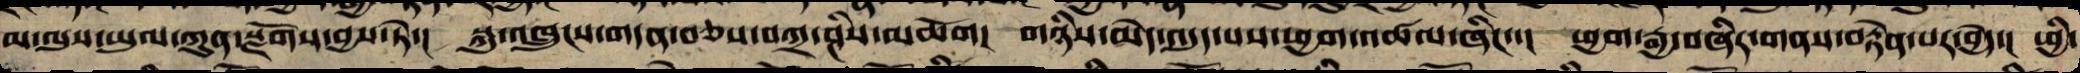མ་ལུས་ཡུལ་ཀུན་སྫོགས་བྱས་ཏེ་། སྐུ་འཁྲུངས་གདན་བཅས་བཀྲ་ཤིས་མཆོག། གཉིས་མེད་འདུད་པས་ཕྱག་འཚལ་ཞིང་་། ཕྱག་རྒྱ་བཞིར་གནས་བརྟན་པར་བྱེད་། ཕྱི་
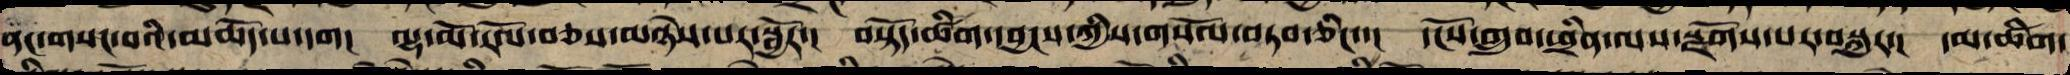ནང་གསང་བའི་མཆོད་པ་དག། ལྷ་མོ་རོལ་བཅས་མཉེས་པར་སྦྱོར་། བསྟོད་ཚིག་དབྱངས་ཀྱིས་གསོལ་གདབ་ཅིང་་། དངོས་གྲུབ་ཕྲིན་ལས་སྫོགས་པར་བསྐུར་། དམ་ཚིག་
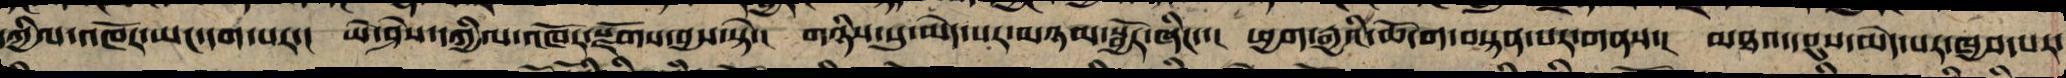དཀྱིལ་འཁོར་ཡང་དག་པར་། ཡེ་ཤེས་དཀྱིལ་འཁོར་སྫོགས་བྱས་ཏེ་། གཉིས་སུ་མེད་པར་མཉམ་སྦྱོར་ཞིང་་། ཕྱག་རྒྱའི་ཆོ་ག་བསྟན་པར་གནས་། མཐའ་དབུས་མེད་པར་ཁྱབ་པར་
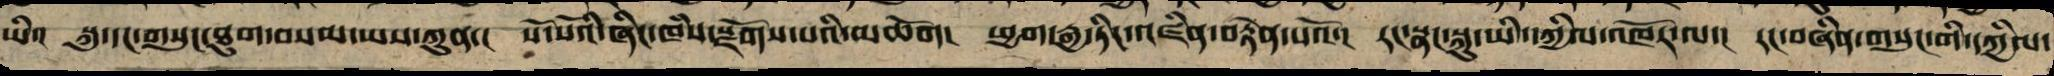ཡི་། སྐུ་དང་གསུང་ཐུགས་བསམ་ཡས་ཀུན་། སོ་སོའི་ཞིང་ཁཾས་སྫོགས་པའི་མཆོག། ཕྱག་རྒྱ་ཏིང་འཛིན་བརྟེན་པའོ་། རང་སྣང་སྐུ་ཡི་དཀྱིལ་འཁོར་ལ་། རང་བཞིན་གསུང་གི་དཀྱིལ་
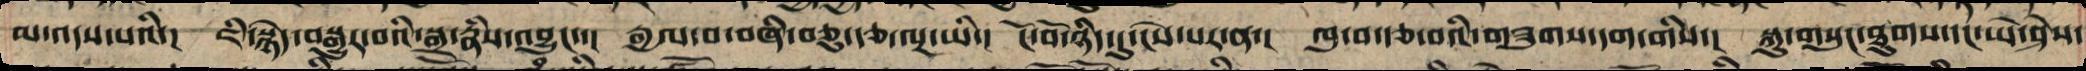མ་འདས་པའི་། ཇི་སྙེད་བསྒྱུར་བའི་སྒྲ་རྣཾས་འབྱུང་་། རྒྱལ་བ་བཞི་བཅུ་རྩ་ལྔ་ཡི་། ངོ་བོ་ཉིད་དུ་ངེས་པར་ན་། ཁུ་བ་རྩ་བའི་གཟུགས་དག་གིས་། སྐུ་གསུང་ཐུགས་དང་ཡེ་ཤེས་
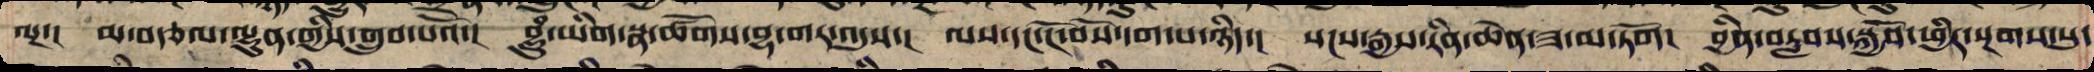ལྔ་། མ་བཙལ་ལྷུན་གྱིས་གྲུབ་པའོ་། བྷྲཱུཾ་ཡིག་སྣ་ཚོགས་བྷ་གར་འདུས་། ལས་དང་ངོ་བོས་དག་པ་ཉིད་། སངས་རྒྱས་རིན་ཆེན་ཟ་མ་ཏོག། བྱིན་བརླབས་སྐྱོབ་ཕྱིར་སྔགས་སུ་
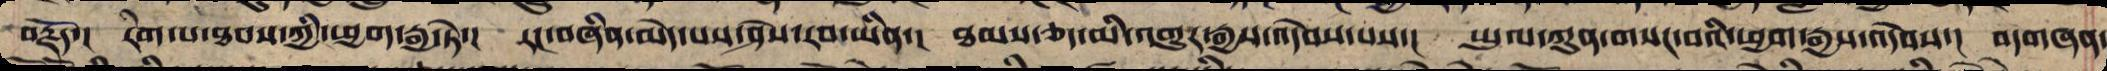བརྗོད་། རིག་པ་ཐབས་ཀྱི་ཕྱག་རྒྱ་སྟེ་། རང་བཞིན་མེད་པས་ཤེས་རབ་ཡིན་། ཐམས་ཅད་མི་འགྱུར་རྒྱས་འདེབས་པས་། ཡུལ་ཀུན་གསང་བའི་ཕྱག་རྒྱས་འདེབས་། བདགཞན་
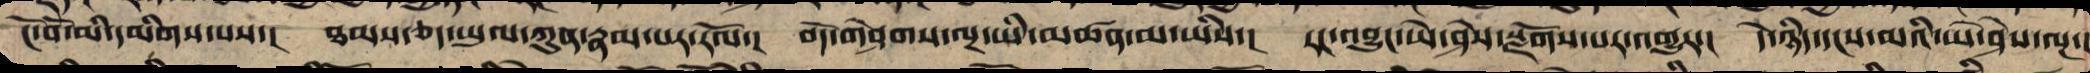ངོ་བོ་མི་དམིགས་པས་། ཐམས་ཅད་ཡུལ་ཀུན་རྣམ་པར་རོལ་། བདེ་གཤེགས་ལྔ་ཡི་མཚན་མ་ཡིས་། རང་བྱུང་ཡེ་ཤེས་སྫོགས་པར་འགྱུར་། དེ་ཉིད་དངས་མའི་ཡེ་ཤེས་ལྔ་།
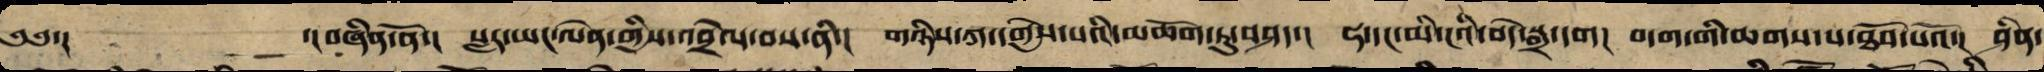༄༅་།  ་།བཞིན་ནོ་། སླར་ཡང་ལེན་གྱིས་འབྲེལ་པས་ནི་། གཉིས་ཀ་དགྱེས་པའི་མཆོག་ཏུ་བཤད་། ཧ་དང་མི་ངའི་བདེ་སྒྲ་དག། བདག་གིས་ཆགས་པ་ཐོབ་པའོ་། ཤིན་
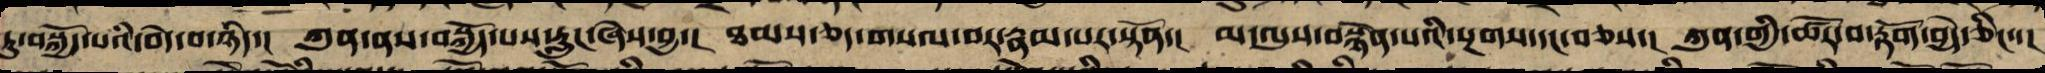ཏུ་བསྐྱོད་པའི་བདེ་བ་ཉིད་། ཀུན་ནས་བསྐྱོད་པ་རླུང་ཞེས་བྱ་། ཐམས་ཅད་གསལ་བར་རྣམ་པར་སྟོན་། མ་ལུས་བསྙེན་པའི་སྔགས་དང་བཅས་། ཀུན་གྱི་ཚོར་བ་རྟོག་བྱེད་ཅིང་་།
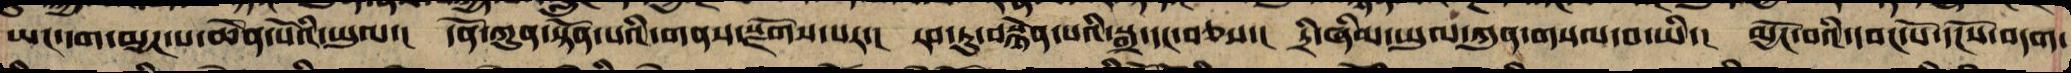ཡང་དག་མྱང་བ་ཆེན་པོའི་ཡུལ་། དོན་ཀུན་སྟོན་པའི་གནས་སྫོགས་པར་། རབ་ཏུ་བསྙེན་པའི་སྒྲ་དང་བཅས་། དྲི་ཞིམ་ཡུལ་ཀུན་གསལ་བ་ཡི་། མྱོང་བའི་དབང་པོ་དངོས་བདག་
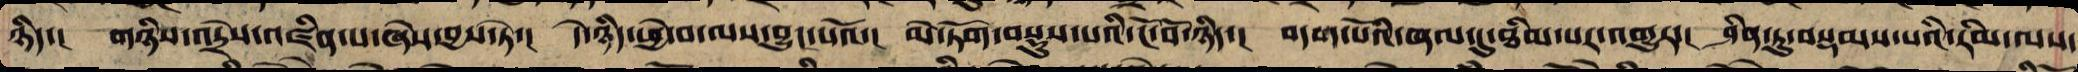ཉིད་། གཉིས་འདྲེས་འཛིན་པ་ཞེས་བྱ་སྟེ་། དེ་ཉིད་ཕྱེ་བ་ལས་བྱུང་བའོ་། མེ་ཏོག་བསྡུས་པའི་ངོ་བོ་ཉིད་། བདག་པོའི་ཞལ་དུ་ཐིམ་པར་བཤད་། ཤིན་ཏུ་བསྡམ་པའི་རིམ་ལས་
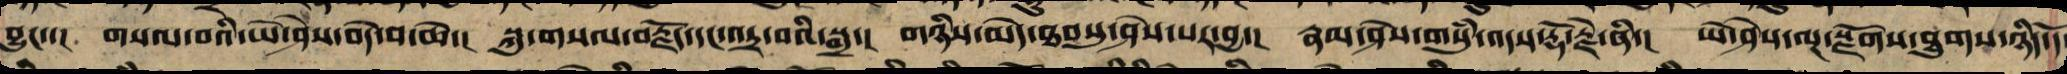བྱུང་་། གསལ་བའི་ཡེ་ཤེས་བདེ་བ་ཆེ་། ཀུན་གསལ་བརྗོད་དང་འདྲ་བའི་སྒྲ་། གཉིས་མེད་ཐུབསུ་ཤེས་པར་བྱ་། རྣམ་ཤེས་གསུཾ་འདས་རྡོ་རྗེ་ནི་། ཡེ་ཤེས་ལྔ་སྫོགས་ཐུགས་ཉིད་དོ
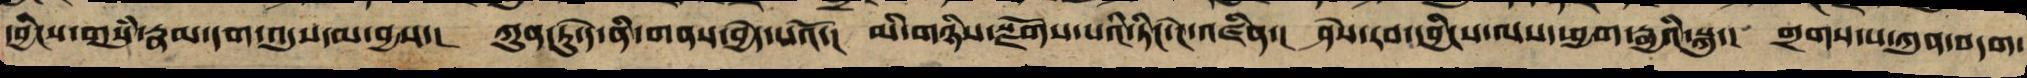དབྱིངས་གསུམ་རྣམ་དག་འདུས་མ་བྱས། ཀུན་ཏུ་དེ་བཞིན་གནས་བྱེད་པའོ། མི་གཉིས་རྫོགས་པའི་ཏིང་ངེ་འཛིན། ཤེས་རབ་དབྱིངས་ལས་ཕྱག་རྒྱའི་སྐུ། གྲགས་པ་ཀུན་བདག་
